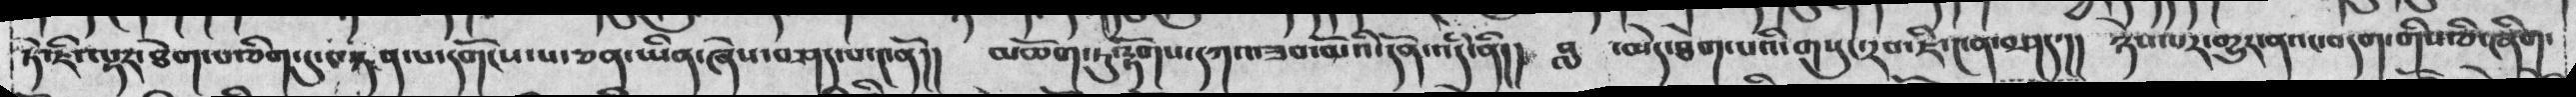ཏེ་ཇི་ལྟར་ཐེག་པ་ཅིག་དུ་བསྟན་པ་དགོངས་པ་ཅན་ཡིན་ཞེས་བཤད་པ་༤ནོ།། མཆོག་ཏུ་རྟོགས་དཀའ་ཟབ་མོའི་དོན་འདི་ནི།། བླ ་མེད་ཐེག་པའི་གསུང་རབ་ཇི་༤ན་བཤད་།། ཉེས་པར་གྱུར་ནའང་བདག་གིས་ཅི་ཞིག་
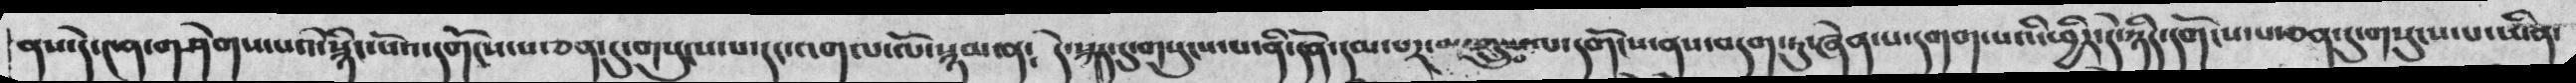ནས་དེ་༤ན་གཤེགས་པའི་སྙིང་པོའ་དགོངས་པ་ཅན་དུ་གསུངས་པ་དང་འགལ་ལོ་སྙམ་ན༴ དེ་སྐད་དུ་གསུངས་པ་ནི་དོན་དམ་གྲུབ་པ་དགོངས་ནས་བདག་ཏུ་ཞེན་པ་དགག་པའི་ཕྱིར་དེ་ཉིད་དགོངས་པ་ཅན་དུ་གསུངས་པ་ཡིན་
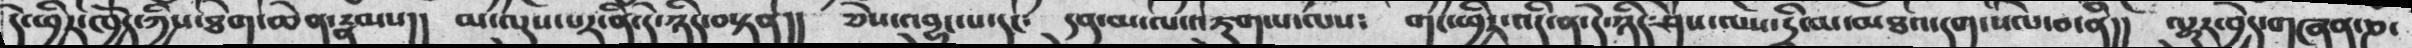དེ་ཕྱིར་ཁྱོད་ཀྱིས་ཐེག་ཆེན་རྣམས།། མ་ལུས་པར་ནི་དེ་ཉིད་བསྟན།། ཅེས་འབྱུང་པ་དང༴ དབུ་མ་ལ་འཇུག་པ་ལས༴  གང་ཕྱིར་འདི་ན་དེ་ཉིད་ཤེས་ལས་དྲི་མ་མཐའ་དག་སེལ་བ་ནི།།  ལྷུར་བྱེད་གཞན་ཎ་
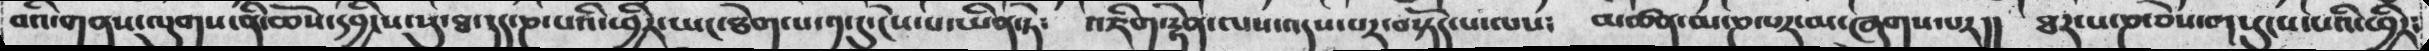བའི་གནས་ལུགས་ནི་ཆོས་དབྱིངས་སུ་ཐ་དད་ཎ་པའི་ཕྱིར་ཡང་ཐེག་པ་༡་དུ་ངེས་པ་ཡིན་ཏེ༴ འཇིག་རྟེན་ལས་འདས་པར་བསྟོད་པ་ལས༴ མཚན་མ་ཎ་པར་མ་ཞུགས་པར།། ཐར་པ་ཎ་ཅེས་གསུངས་པའི་ཕྱིར༴
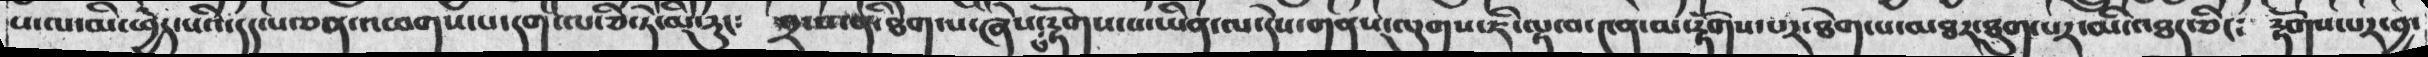པ་ལ་མི་ཕྱེད་པའི་དད་པ་ཅན་འཕགས་པ་དག་ལ་ཅི་ཏེ་མི་རུང༴   ༣་པ་ནི་ཐེག་པ་ཞེས་པ་རྟོགས་པ་ཡིན་ལ་དེས་གནས་ལུགས་ཇི་ལྟ་བ་༤ན་མ་རྟོགས་པར་ཐེག་པ་མཐར་ཐུག་པར་མི་འཐད་ཅིང༴  རྟོགས་པར་བྱ་
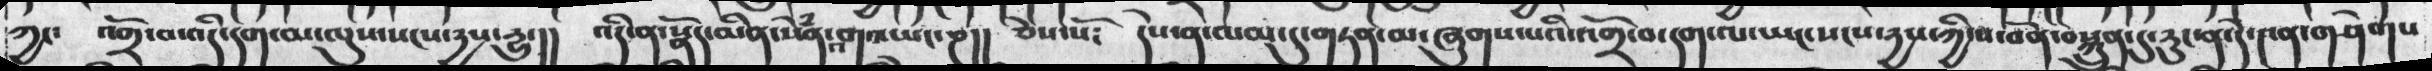ཀྱང་ འགྲོ་བ་འདི་དག་མ་ལུས་སངས་རྱས་རྱུ་།། འདི་ན་སྣོད་མིན་སེཾན་གའ་ཡང་ཎ།། ཅེས་སོ༴ དེས་ན་ལམ་དུ་གཏན་མ་ཞུགས་པའི་འགྲོ་བ་དག་ལ་ཡང་སངས་རྱས་ཀྱི་ས་བོན་བསྐྲུན་དུ་རུང་ན་དེ་༤ན་གཤེགས
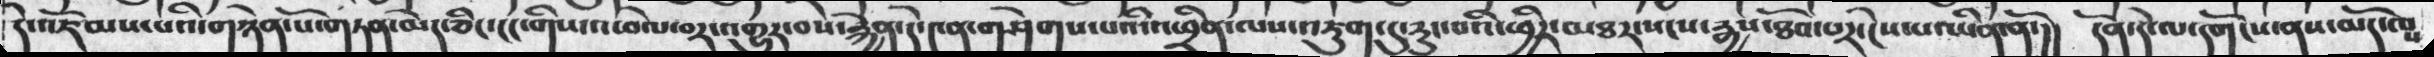དེ་འཇོམས་པའི་གཉེན་པོ་གཏན་མེད་ཅིང་ངང་གིས་འཕེལ་བར་འགྱུར་བས་རྐྱེན་དེ་༤ན་གཤེགས་པའི་འཕྲིན་ལས་འཇུག་དུ་རུང་བའི་ཕྱིར་མཐར་སངས་རྒྱས་ཐོབ་པར་ངེས་པ་ཡིན་ནོ་།།  དོན་དེ་ལ་དགོངས་ནས་མོད་ཁ
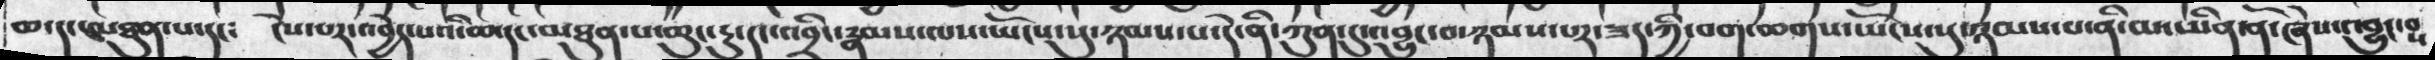ཆ་དང་མཐུན་པ་དང༴  ངེས་པར་འབྱེད་པའི་ཆ་དང་མཐུན་པ་ཆུང་རུ་དང་འབྲིང་རྣམས་ལས་ཡོངས་སུ་ཉམས་པ་དེ་ནི་ཀུན་དུ་འབྱུང་བ་ཉམས་པར་ཟད་ཀྱི་བག་ཆགས་ཡོངས་སུ་ཉམས་པ་ནི་མ་ཡིན་ནོ་ཞེས་འབྱུང་བ
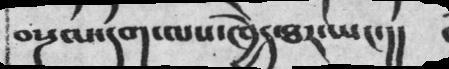བསྔལ་དག་ལས་ཁྱེད་ཐར་ཡང་།།
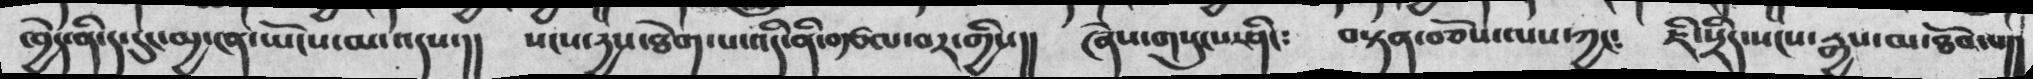ཁྱེད་ནི་ད་དུང་མྱ་ངན་ཡོངས་མ་འདས་།།  སངས་དྱས་ཐེག་པ་འདི་ནི་བརྩལ་བར་གྱིས།།  ཞེས་གསུངས་ཤིང༴  བསྟན་བཅོས་ལས་ཀྱང༴  ཇི་སྲིད་སངས་རྒྱས་མ་ཐོབ་པ།།
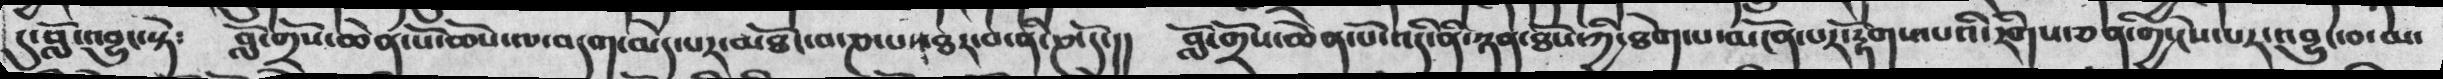དུ་བློ་འབྱུང་སྟེ༴  བློ་གྲོས་ཆེན་པོ་ཆོས་ལ་བདག་མེད་པར་མཐོང་བ་ཎ་པ་ཐར་བ་ནི་ཎ་དོ་།།  བློ་གྲོས་ཆེན་པོ་འདི་ནི་ཉན་ཐོས་ཀྱི་ཐེག་པ་མངོན་པར་རྟོགས་པའི་རིགས་ཅན་གྱི་ངེས་པར་འབྱུང་བ་མ་
